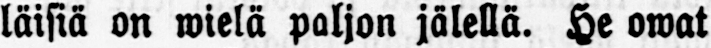läisiä on wielä paljon jälellä. He owat
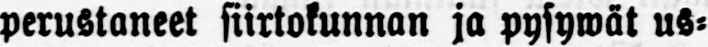perustaneet siirtokunnan ja pysywät us-
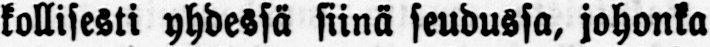kollisesti yhdessä siinä seudussa, johonka
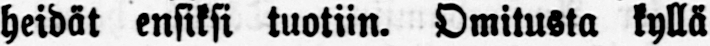heidät ensiksi tuotiin. Omitusta kyllä
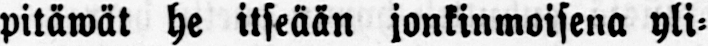pitäwät he itseään jonkinmoisena yli-
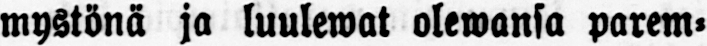mystönä ja luulewat olewansa parem-
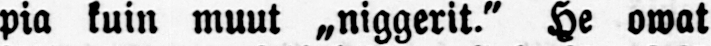pia kuin muut „ niggerit." He owat
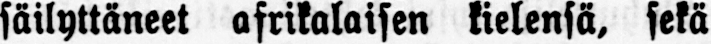säilyttäneet afrikalaisen kielensä, sekä
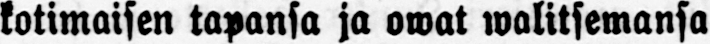kotimaisen tapansa ja owat walitsemansa
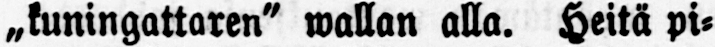„ kuningattaren" wallan alla. Heitä pi-
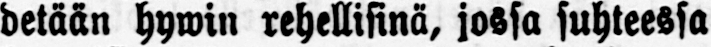detään hywin rehellisinä, jossa suhteessa
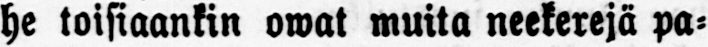he toisiaankin owat muita neekerejä pa-
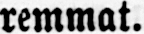remmat.
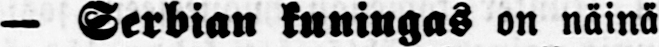— Serbian kuningas on näinä
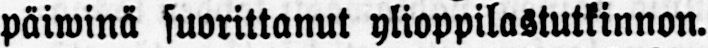päiwinä suorittanut ylioppilastutkinnon.
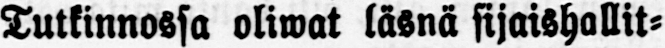Tutkinnossa oliwat läsnä sijaishallit-
